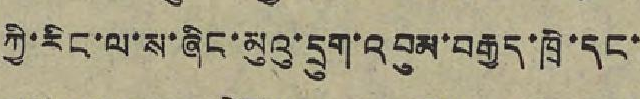ཀྱི་རིང་ལ་ས་ཞིང་མུའུ་དྲུག་འབུམ་བརྒྱད་ཁྲི་དང་
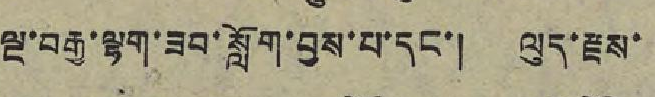ལྔ་བརྒྱ་ལྷག་ཟབ་སློག་བྱས་པ་དང་། ལུད་རྫས་
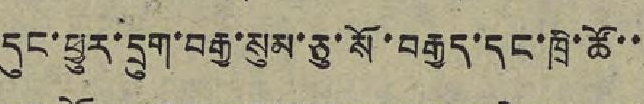དུང་ཕྱུར་དྲུག་བརྒྱ་སུམ་ཅུ་སོ་བརྒྱད་དང་ཁྲི་ཚོ་་
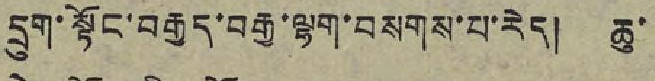དྲུག་སྟོང་བརྒྱད་བརྒྱ་ལྷག་བསགས་པ་རེད། ཆུ་
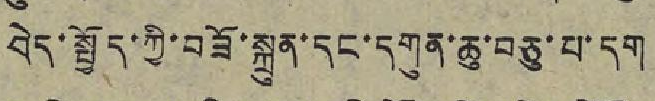བེད་སྤྱོད་ཀྱི་བཟོ་སྐྲུན་དང་དགུན་ཆུ་བཅུ་པ་དག
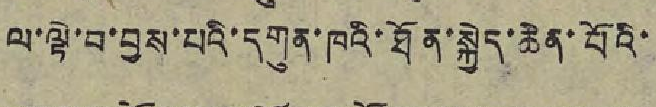ལ་ལྟེ་བ་བྱས་པའི་དགུན་ཁའི་ཐོན་སྐྱེད་ཆེན་པོའི་
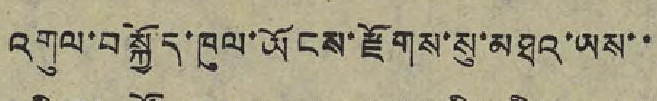འགུལ་བསྐྱོད་ཁུལ་ཡོངས་རྫོགས་སུ་མཐའ་ཡས་་
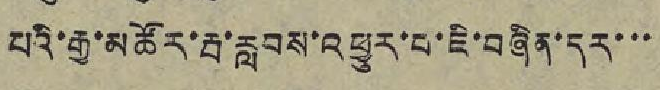པའི་རྒྱ་མཚོར་རྦ་རླབས་འཕྱུར་བ་ཇི་བཞིན་དར་་་
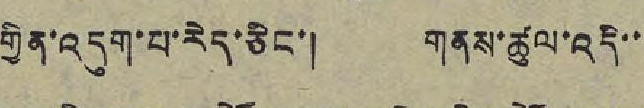གྱིན་འདུག་པ་རེད་ཅིང་། གནས་ཚུལ་འདི་་
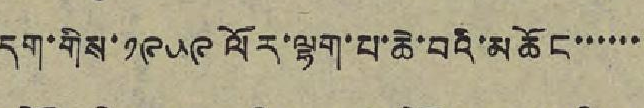དག་གིས་ ༡༩༥༩ ལོར་ལྷག་པ་ཆེ་བའི་མཆོང་་་་་་
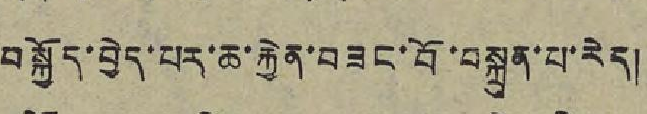བསྐྱོད་བྱེད་པར་ཆ་རྐྱེན་བཟང་བོ་བསྐྲུན་པ་རེད།
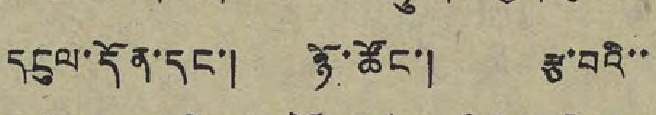དངུལ་དོན་དང་། ཉོ་ཚོང་། རྩ་བའི་་
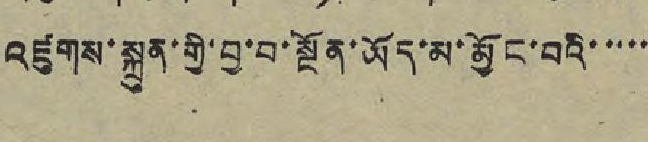འཛུགས་སྐྲུན་གྱི་བྱ་བ་སྔོན་ཡོད་མ་མྱོང་བའི་་་་་
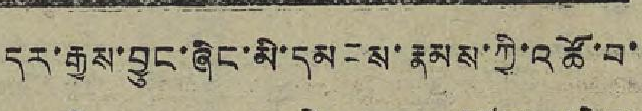དར་རྒྱས་བྱུང་ཞིང་མི་དམངས་རྣམས་ཀྱི་འཚོ་བ་
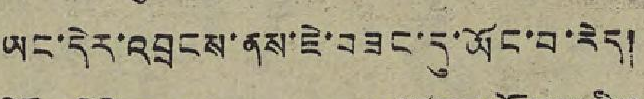ཡང་དེར་འབྲངས་ནས་ཇེ་བཟང་དུ་ཡོང་བ་རེད།
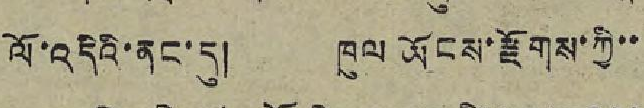ལོ་འདིའི་ནང་དུ། ཁུལ ཡོངས་རྫོགས་ཀྱི་་
